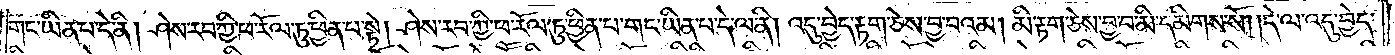གང་ཡིན་པ་དེ་ནི། ཤེས་རབ་ཀྱི་ཕ་རོལ་ཏུ་ཕྱིན་པ་སྟེ། ཤེས་རབ་ཀྱི་ཕ་རོལ་ཏུ་ཕྱིན་པ་གང་ཡིན་པ་དེ་ལ་ནི། འདུ་བྱེད་རྟག་ཅེས་བྱ་བའམ། མི་རྟག་ཅེས་བྱ་བ་མི་དམིགས་སོ། །དེ་ལ་འདུ་བྱེད་
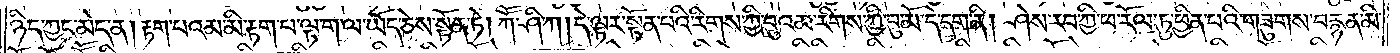ཉིད་ཀྱང་མེད་ན། རྟག་པའམ་མི་རྟག་པ་ལྟ་ག་ལ་ཡོད་ཅེས་སྟོན་ཏེ། ཀཽ་ཤི་ཀ། དེ་ལྟར་སྟོན་པའི་རིགས་ཀྱི་བུའམ་རིགས་ཀྱི་བུ་མོ་དེ་དག་ནི། ཤེས་རབ་ཀྱི་ཕ་རོལ་ཏུ་ཕྱིན་པའི་གཟུགས་བརྙན་མི་
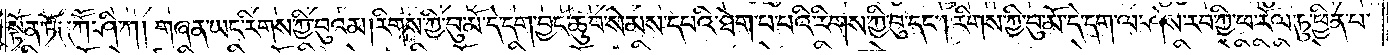སྟོན་ཏོ༑ ༑ཀཽ་ཤི་ཀ། གཞན་ཡང་རིགས་ཀྱི་བུའམ། རིགས་ཀྱི་བུ་མོ་དེ་དག་བྱང་ཆུབ་སེམས་དཔའི་ཐེག་པ་པའི་རིགས་ཀྱི་བུ་དང༌། རིགས་ཀྱི་བུ་མོ་དེ་དག་ལ་ཤེས་རབ་ཀྱི་ཕ་རོལ་ཏུ་ཕྱིན་པ་
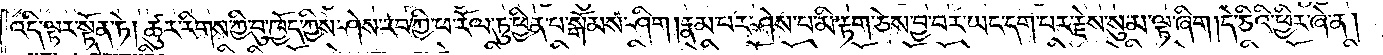འདི་ལྟར་སྟོན་ཏེ། ཚུར་རིགས་ཀྱི་བུ་ཁྱོད་ཀྱིས་ཤེས་རབ་ཀྱི་ཕ་རོལ་ཏུ་ཕྱིན་པ་སྒོམས་ཤིག །རྣམ་པར་ཤེས་པ་མི་རྟག་ཅེས་བྱ་བར་ཡང་དག་པར་རྗེས་སུ་མ་ལྟ་ཞིག །དེ་ཅིའི་ཕྱིར་ཞེ་ན།
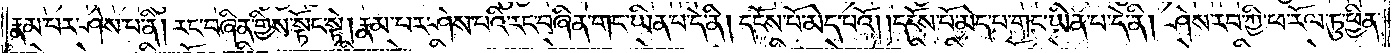རྣམ་པར་ཤེས་པ་ནི། རང་བཞིན་གྱིས་སྟོང་སྟེ། རྣམ་པར་ཤེས་པའི་རང་བཞིན་གང་ཡིན་པ་དེ་ནི། དངོས་པོ་མེད་པའོ། །དངོས་པོ་མེད་པ་གང་ཡིན་པ་དེ་ནི། ཤེས་རབ་ཀྱི་ཕ་རོལ་ཏུ་ཕྱིན་
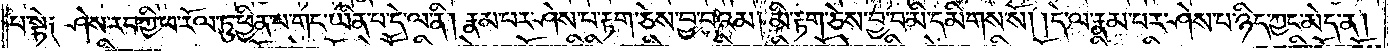པ་སྟེ༑ ཤེས་རབ་ཀྱི་ཕ་རོལ་ཏུ་ཕྱིན་པ་གང་ཡིན་པ་དེ་ལ་ནི། རྣམ་པར་ཤེས་པ་རྟག་ཅེས་བྱ་བའམ། མི་རྟག་ཅེས་བྱ་བ་མི་དམིགས་སོ། །དེ་ལ་རྣམ་པར་ཤེས་པ་ཉིད་ཀྱང་མེད་ན།
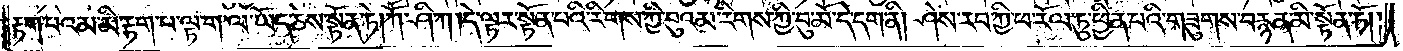རྟག་པའམ་མི་རྟག་པ་ལྟ་ག་ལ་ཡོད་ཅེས་སྟོན་ཏེ། ཀཽ་ཤི་ཀ། དེ་ལྟར་སྟོན་པའི་རིགས་ཀྱི་བུའམ་རིགས་ཀྱི་བུ་མོ་དེ་དག་ནི། ཤེས་རབ་ཀྱི་ཕ་རོལ་ཏུ་ཕྱིན་པའི་གཟུགས་བརྙན་མི་སྟོན་ཏོ། །
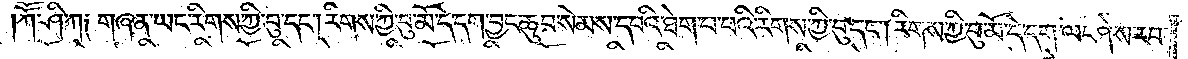ཀཽ་ཤི་ཀ༑ གཞན་ཡང་རིགས་ཀྱི་བུ་དང༌། རིགས་ཀྱི་བུ་མོ་དེ་དག་བྱང་ཆུབ་སེམས་དཔའི་ཐེག་པ་པའི་རིགས་ཀྱི་བུ་དང༌། རིགས་ཀྱི་བུ་མོ་དེ་དག་ལ་ཤེས་རབ་
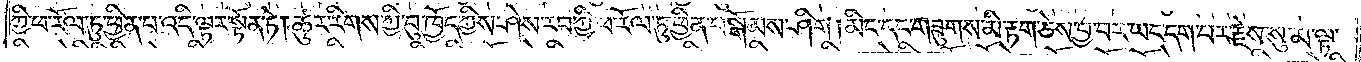ཀྱི་ཕ་རོལ་ཏུ་ཕྱིན་པ་འདི་ལྟར་སྟོན་ཏེ། ཚུར་རིགས་ཀྱི་བུ་ཁྱོད་ཀྱིས་ཤེས་རབ་ཀྱི་ཕ་རོལ་ཏུ་ཕྱིན་པ་སྒོམས་ཤིག །མིང་དང་གཟུགས་མི་རྟག་ཅེས་བྱ་བར་ཡང་དག་པར་རྗེས་སུ་མ་ལྟ་
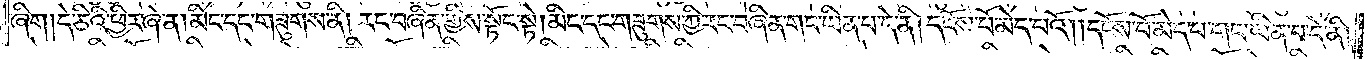ཞིག །དེ་ཅིའི་ཕྱིར་ཞེ་ན། མིང་དང་གཟུགས་ནི། རང་བཞིན་གྱིས་སྟོང་སྟེ། མིང་དང་གཟུགས་ཀྱི་རང་བཞིན་གང་ཡིན་པ་དེ་ནི། དངོས་པོ་མེད་པའོ། །དངོས་པོ་མེད་པ་གང་ཡིན་པ་དེ་ནི།
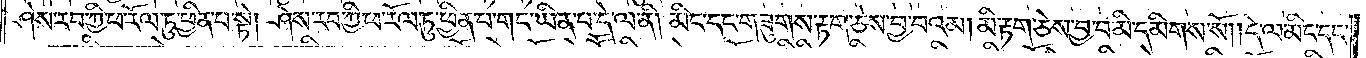ཤེས་རབ་ཀྱི་ཕ་རོལ་ཏུ་ཕྱིན་པ་སྟེ། ཤེས་རབ་ཀྱི་ཕ་རོལ་ཏུ་ཕྱིན་པ་གང་ཡིན་པ་དེ་ལ་ནི། མིང་དང་གཟུགས་རྟག་ཅེས་བྱ་བའམ། མི་རྟག་ཅེས་བྱ་བ་མི་དམིགས་སོ། །དེ་ལ་མིང་དང་
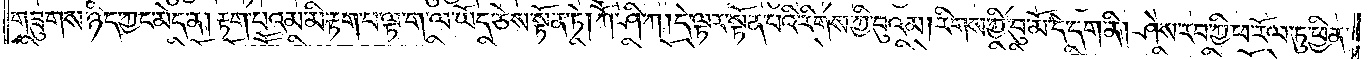གཟུགས་ཉིད་ཀྱང་མེད་ན། རྟག་པའམ་མི་རྟག་པ་ལྟ་ག་ལ་ཡོད་ཅེས་སྟོན་ཏེ། ཀཽ་ཤི་ཀ། དེ་ལྟར་སྟོན་པའི་རིགས་ཀྱི་བུའམ། རིགས་ཀྱི་བུ་མོ་དེ་དག་ནི། ཤེས་རབ་ཀྱི་ཕ་རོལ་ཏུ་ཕྱིན་
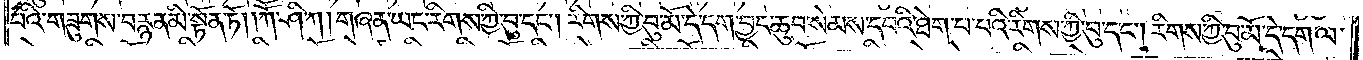པའི་གཟུགས་བརྙན་མི་སྟོན་ཏོ། །ཀཽ་ཤི་ཀ། གཞན་ཡང་རིགས་ཀྱི་བུ་དང༌། རིགས་ཀྱི་བུ་མོ་དེ་དག་བྱང་ཆུབ་སེམས་དཔའི་ཐེག་པ་པའི་རིགས་ཀྱི་བུ་དང༌། རིགས་ཀྱི་བུ་མོ་དེ་དག་ལ་
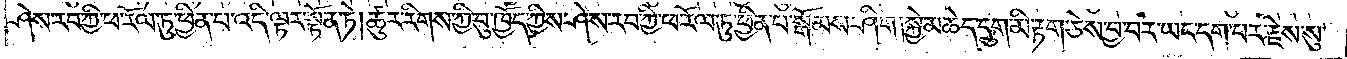ཤེས་རབ་ཀྱི་ཕ་རོལ་ཏུ་ཕྱིན་པ་འདི་ལྟར་སྟོན་ཏེ། ཚུར་རིགས་ཀྱི་བུ་ཁྱོད་ཀྱིས་ཤེས་རབ་ཀྱི་ཕ་རོལ་ཏུ་ཕྱིན་པ་སྒོམས་ཤིག །སྐྱེ་མཆེད་དྲུག་མི་རྟག་ཅེས་བྱ་བར་ཡང་དག་པར་རྗེས་སུ་
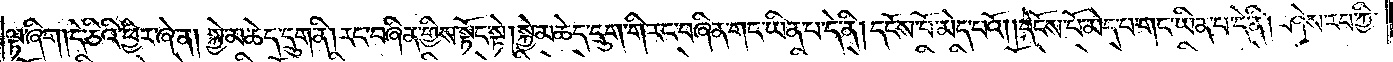ལྟ་ཞིག །དེ་ཅིའི་ཕྱིར་ཞེ་ན། སྐྱེ་མཆེད་དྲུག་ནི། རང་བཞིན་གྱིས་སྟོང་སྟེ། སྐྱེ་མཆེད་དྲུག་གི་རང་བཞིན་གང་ཡིན་པ་དེ་ནི། དངོས་པོ་མེད་པའོ། །དངོས་པོ་མེད་པ་གང་ཡིན་པ་དེ་ནི། ཤེས་རབ་ཀྱི་
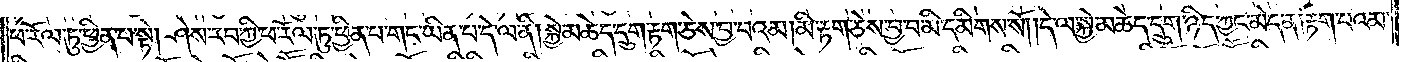ཕ་རོལ་ཏུ་ཕྱིན་པ་སྟེ། ཤེས་རབ་ཀྱི་ཕ་རོལ་ཏུ་ཕྱིན་པ་གང་ཡིན་པ་དེ་ལ་ནི། སྐྱེ་མཆེད་དྲུག་རྟག་ཅེས་བྱ་བའམ། མི་རྟག་ཅེས་བྱ་བ་མི་དམིགས་སོ། །དེ་ལ་སྐྱེ་མཆེད་དྲུག་ཉིད་ཀྱང་མེད་ན། རྟག་པའམ་
